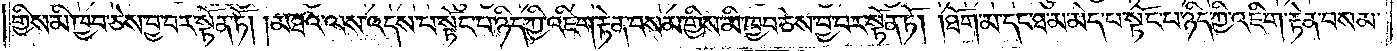གྱིས་མི་ཁྱབ་ཅེས་བྱ་བར་སྟོན་ཏོ། །མཐའ་ལས་འདས་པ་སྟོང་པ་ཉིད་ཀྱི་འཇིག་རྟེན་བསམ་གྱིས་མི་ཁྱབ་ཅེས་བྱ་བར་སྟོན་ཏོ། །ཐོག་མ་དང་ཐ་མ་མེད་པ་སྟོང་པ་ཉིད་ཀྱི་འཇིག་རྟེན་བསམ་
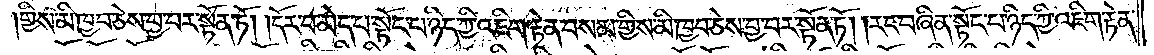གྱིས་མི་ཁྱབ་ཅེས་བྱ་བར་སྟོན་ཏོ། །དོར་བ་མེད་པ་སྟོང་པ་ཉིད་ཀྱི་འཇིག་རྟེན་བསམ་གྱིས་མི་ཁྱབ་ཅེས་བྱ་བར་སྟོན་ཏོ། །རང་བཞིན་སྟོང་པ་ཉིད་ཀྱི་འཇིག་རྟེན་
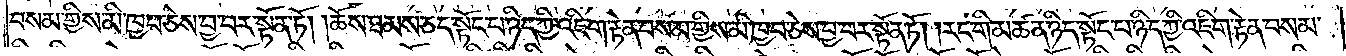བསམ་གྱིས་མི་ཁྱབ་ཅེས་བྱ་བར་སྟོན་ཏོ། །ཆོས་ཐམས་ཅད་སྟོང་པ་ཉིད་ཀྱི་འཇིག་རྟེན་བསམ་གྱིས་མི་ཁྱབ་ཅེས་བྱ་བར་སྟོན་ཏོ། །རང་གི་མཚན་ཉིད་སྟོང་པ་ཉིད་ཀྱི་འཇིག་རྟེན་བསམ་
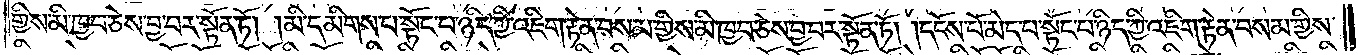གྱིས་མི་ཁྱབ་ཅེས་བྱ་བར་སྟོན་ཏོ། །མི་དམིགས་པ་སྟོང་པ་ཉིད་ཀྱི་འཇིག་རྟེན་བསམ་གྱིས་མི་ཁྱབ་ཅེས་བྱ་བར་སྟོན་ཏོ། །དངོས་པོ་མེད་པ་སྟོང་པ་ཉིད་ཀྱི་འཇིག་རྟེན་བསམ་གྱིས་
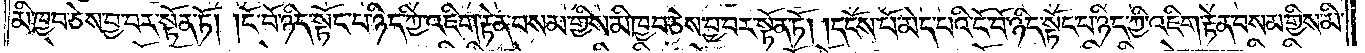མི་ཁྱབ་ཅེས་བྱ་བར་སྟོན་ཏོ། །ངོ་བོ་ཉིད་སྟོང་པ་ཉིད་ཀྱི་འཇིག་རྟེན་བསམ་གྱིས་མི་ཁྱབ་ཅེས་བྱ་བར་སྟོན་ཏོ། །དངོས་པོ་མེད་པའི་ངོ་བོ་ཉིད་སྟོང་པ་ཉིད་ཀྱི་འཇིག་རྟེན་བསམ་གྱིས་མི་
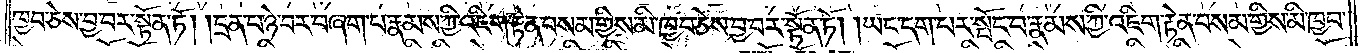ཁྱབ་ཅེས་བྱ་བར་སྟོན་ཏོ། །དྲན་པ་ཉེ་བར་བཞག་པ་རྣམས་ཀྱི་འཇིག་རྟེན་བསམ་གྱིས་མི་ཁྱབ་ཅེས་བྱ་བར་སྟོན་ཏོ། །ཡང་དག་པར་སྤོང་བ་རྣམས་ཀྱི་འཇིག་རྟེན་བསམ་གྱིས་མི་ཁྱབ་
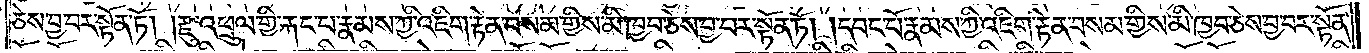ཅེས་བྱ་བར་སྟོན་ཏོ། །རྫུ་འཕྲུལ་གྱི་རྐང་པ་རྣམས་ཀྱི་འཇིག་རྟེན་བསམ་གྱིས་མི་ཁྱབ་ཅེས་བྱ་བར་སྟོན་ཏོ། །དབང་པོ་རྣམས་ཀྱི་འཇིག་རྟེན་བསམ་གྱིས་མི་ཁྱབ་ཅེས་བྱ་བར་སྟོན་
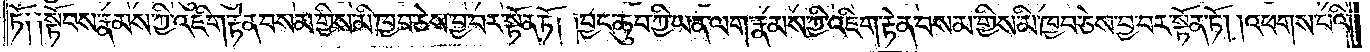ཏོ༑ ༑སྟོབས་རྣམས་ཀྱི་འཇིག་རྟེན་བསམ་གྱིས་མི་ཁྱབ་ཅེས་བྱ་བར་སྟོན་ཏོ། །བྱང་ཆུབ་ཀྱི་ཡན་ལག་རྣམས་ཀྱི་འཇིག་རྟེན་བསམ་གྱིས་མི་ཁྱབ་ཅེས་བྱ་བར་སྟོན་ཏོ། །འཕགས་པའི་
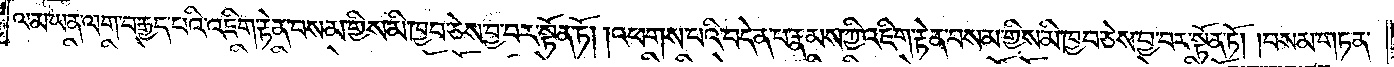ལམ་ཡན་ལག་བརྒྱད་པའི་འཇིག་རྟེན་བསམ་གྱིས་མི་ཁྱབ་ཅེས་བྱ་བར་སྟོན་ཏོ། །འཕགས་པའི་བདེན་པ་རྣམས་ཀྱི་འཇིག་རྟེན་བསམ་གྱིས་མི་ཁྱབ་ཅེས་བྱ་བར་སྟོན་ཏོ། །བསམ་གཏན་
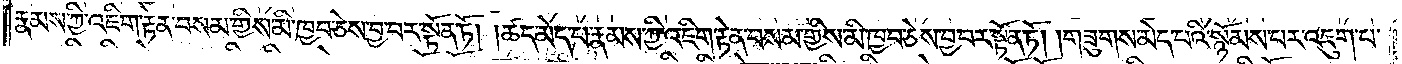རྣམས་ཀྱི་འཇིག་རྟེན་བསམ་གྱིས་མི་ཁྱབ་ཅེས་བྱ་བར་སྟོན་ཏོ། །ཚད་མེད་པ་རྣམས་ཀྱི་འཇིག་རྟེན་བསམ་གྱིས་མི་ཁྱབ་ཅེས་བྱ་བར་སྟོན་ཏོ། །གཟུགས་མེད་པའི་སྙོམས་པར་འཇུག་པ་
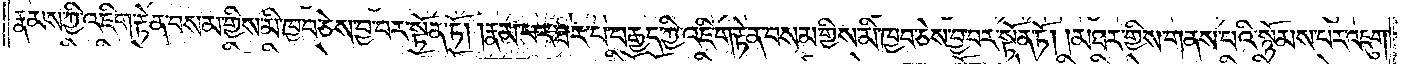རྣམས་ཀྱི་འཇིག་རྟེན་བསམ་གྱིས་མི་ཁྱབ་ཅེས་བྱ་བར་སྟོན་ཏོ། །རྣམ་པར་ཐར་པ་བརྒྱད་ཀྱི་འཇིག་རྟེན་བསམ་གྱིས་མི་ཁྱབ་ཅེས་བྱ་བར་སྟོན་ཏོ། །མཐར་གྱིས་གནས་པའི་སྙོམས་པར་འཇུག་
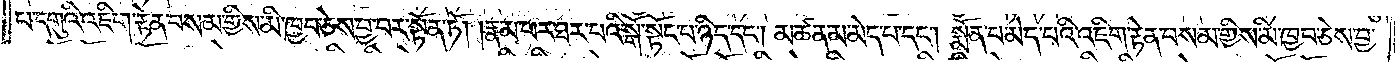པ་དགུའི་འཇིག་རྟེན་བསམ་གྱིས་མི་ཁྱབ་ཅེས་བྱ་བར་སྟོན་ཏོ། །རྣམ་པར་ཐར་པའི་སྒོ་སྟོང་པ་ཉིད་དང༌། མཚན་མ་མེད་པ་དང༌། སྨོན་པ་མེད་པའི་འཇིག་རྟེན་བསམ་གྱིས་མི་ཁྱབ་ཅེས་བྱ་
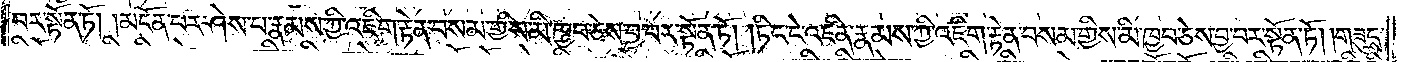བར་སྟོན་ཏོ། །མངོན་པར་ཤེས་པ་རྣམས་ཀྱི་འཇིག་རྟེན་བསམ་གྱིས་མི་ཁྱབ་ཅེས་བྱ་བར་སྟོན་ཏོ། །ཏིང་ངེ་འཛིན་རྣམས་ཀྱི་འཇིག་རྟེན་བསམ་གྱིས་མི་ཁྱབ་ཅེས་བྱ་བར་སྟོན་ཏོ། །གཟུངས་
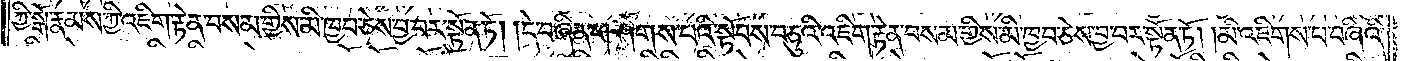ཀྱི་སྒོ་རྣམས་ཀྱི་འཇིག་རྟེན་བསམ་གྱིས་མི་ཁྱབ་ཅེས་བྱ་བར་སྟོན་ཏོ། །དེ་བཞིན་གཤེགས་པའི་སྟོབས་བཅུའི་འཇིག་རྟེན་བསམ་གྱིས་མི་ཁྱབ་ཅེས་བྱ་བར་སྟོན་ཏོ། །མི་འཇིགས་པ་བཞིའི་
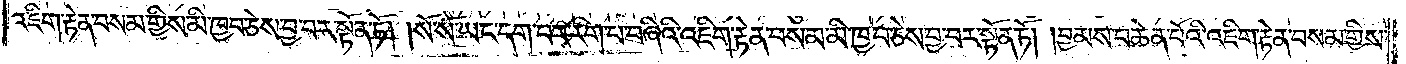འཇིག་རྟེན་བསམ་གྱིས་མི་ཁྱབ་ཅེས་བྱ་བར་སྟོན་ཏོ། །སོ་སོ་ཡང་དག་པར་རིག་པ་བཞིའི་འཇིག་རྟེན་བསམ་གྱིས་མི་ཁྱབ་ཅེས་བྱ་བར་སྟོན་ཏོ། །བྱམས་པ་ཆེན་པོའི་འཇིག་རྟེན་བསམ་གྱིས་
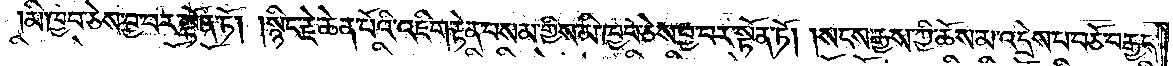མི་ཁྱབ་ཅེས་བྱ་བར་སྟོན་ཏོ། །སྙིང་རྗེ་ཆེན་པོའི་འཇིག་རྟེན་བསམ་གྱིས་མི་ཁྱབ་ཅེས་བྱ་བར་སྟོན་ཏོ། །སངས་རྒྱས་ཀྱི་ཆོས་མ་འདྲེས་པ་བཅོ་བརྒྱད་
